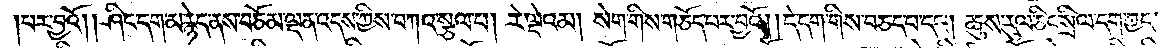པར་བྱའོ། །ཤིང་དག་མ་རྙེད་ནས་བཅོམ་ལྡན་འདས་ཀྱིས་བཀའ་སྩལ་པ། རེ་ལྡེའམ། སེག་གིས་གཅོད་པར་བྱའོ། །དེ་དག་གིས་བཅད་པ་དང༌། ཆུས་རུལ་ཅིང་སྲིལ་དག་ཀྱང་
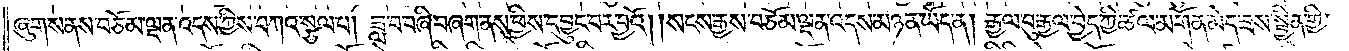ཞུགས་ནས་བཅོམ་ལྡན་འདས་ཀྱིས་བཀའ་སྩལ་པ། ཟླ་བ་བཞི་བཞག་ནས་ཕྱིས་དབྱུང་བར་བྱའོ། །སངས་རྒྱས་བཅོམ་ལྡན་འདས་མཉན་ཡོད་ན། རྒྱལ་བུ་རྒྱལ་བྱེད་ཀྱི་ཚལ་མགོན་མེད་ཟས་སྦྱིན་གྱི་
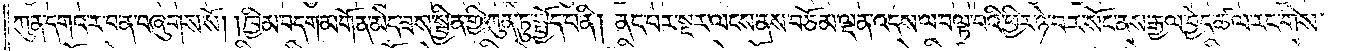ཀུན་དགའ་ར་བ་ན་བཞུགས་སོ། །ཁྱིམ་བདག་མགོན་མེད་ཟས་སྦྱིན་གྱི་ཀུན་ཏུ་སྤྱོད་པ་ནི། ནང་བར་སྔར་ལངས་ནས་བཅོམ་ལྡན་འདས་ལ་བལྟ་བའི་ཕྱིར་ཉེ་བར་སོང་ནས་རྒྱལ་བྱེད་ཚལ་རང་གིས་
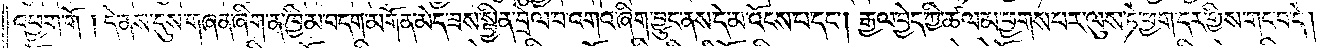འཕྱག་གོ །དེ་ནས་དུས་གཞན་ཞིག་ན་ཁྱིམ་བདག་མགོན་མེད་ཟས་སྦྱིན་བྲེལ་བ་འགའ་ཞིག་བྱུང་ནས་དེ་མ་འོངས་པ་དང༌། རྒྱལ་བྱེད་ཀྱི་ཚལ་མ་ཕྱགས་པར་ལུས་ཏེ་ཕྱག་དར་གྱིས་གང་བ་དེ།
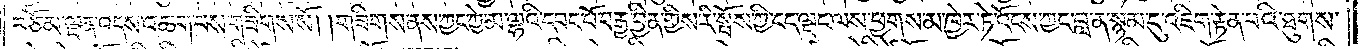བཅོམ་ལྡན་འདས་འཆགས་པས་གཟིགས་སོ། །གཟིགས་ནས་ཀྱང་ཀྱེ་མ་ལྷའི་དབང་པོ་བརྒྱ་བྱིན་གྱིས་རི་སྤོས་ཀྱི་ངད་ལྡང་ལས་ཕྱགས་མ་ཁྱེར་ཏེ་འོངས་ཀྱང་བླ་ན་སྙམ་དུ་འཇིག་རྟེན་པའི་ཐུགས་
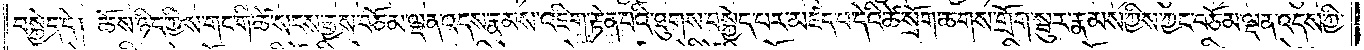བསྐྱེད་དེ། ཆོས་ཉིད་ཀྱིས་གང་གི་ཚེ་སངས་རྒྱས་བཅོམ་ལྡན་འདས་རྣམས་འཇིག་རྟེན་པའི་ཐུགས་བསྐྱེད་པར་མཛད་པ་དེའི་ཚེ་སྲོག་ཆགས་གྲོག་སྦུར་རྣམས་ཀྱིས་ཀྱང་བཅོམ་ལྡན་འདས་ཀྱི་
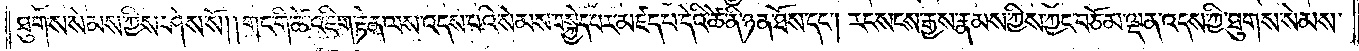ཐུགས་སེམས་ཀྱིས་ཤེས་སོ། །གང་གི་ཚེ་འཇིག་རྟེན་ལས་འདས་པའི་སེམས་བསྐྱེད་པར་མཛད་པ་དེའི་ཚེ་ན་ཉན་ཐོས་དང༌། རང་སངས་རྒྱས་རྣམས་ཀྱིས་ཀྱང་བཅོམ་ལྡན་འདས་ཀྱི་ཐུགས་སེམས་
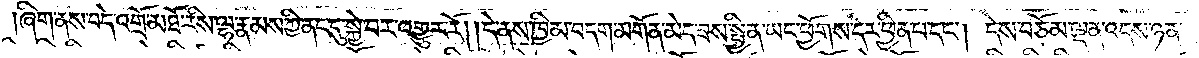ཞིག་ནས་བདེ་འགྲོ་མཐོ་རིས་ལྷ་རྣམས་ཀྱི་ནང་དུ་སྐྱ་བར་འགྱུར་རོ། །དེ་ནས་ཁྱིམ་བདག་མགོན་མེད་ཟས་སྦྱིན་ཡང་ཕྱོགས་དེར་ཕྱིན་པ་དང༌། དེས་བཅོམ་ལྡན་འདས་ཉན་
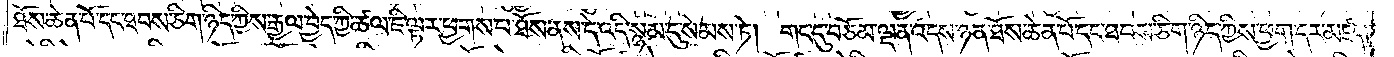ཐོས་ཆེན་པོ་དང་ཐབས་ཅིག་ཉིད་ཀྱིས་རྒྱལ་བྱེད་ཀྱི་ཚལ་ཇི་ལྟར་ཕྱགས་པ་ཐོས་ནས་དེ་འདི་སྙམ་དུ་སེམས་ཏེ། གང་དུ་བཅོམ་ལྡན་འདས་ཉན་ཐོས་ཆེན་པོ་དང་ཐབས་ཅིག་ཉིད་ཀྱིས་ཕྱག་དར་མཛད་
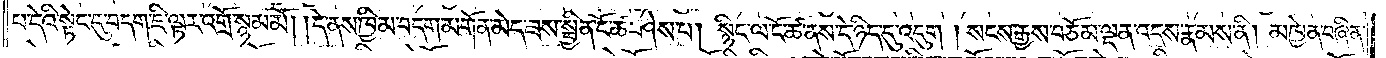པ་དེའི་སྟེང་དུ་བདག་ཇི་ལྟར་འགྲོ་སྙམ་མོ། །དེ་ནས་ཁྱིམ་བདག་མགོན་མེད་ཟས་སྦྱིན་ངོ་ཚ་ཤེས་པ། སྙིང་ལ་ངོ་ཚ་ནས་དེ་ཉིད་དུ་འདུག །སངས་རྒྱས་བཅོམ་ལྡན་འདས་རྣམས་ནི། མཁྱེན་བཞིན་
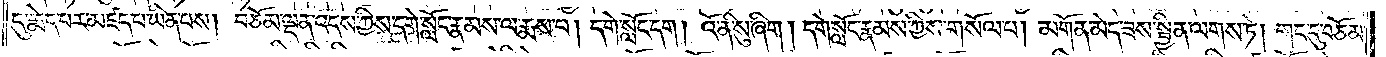དུ་རྨེད་པར་མཛད་པ་ཡིན་པས། བཅོམ་ལྡན་འདས་ཀྱིས་དགེ་སློང་རྣམས་ལ་རྨས་པ། དགེ་སློང་དག །འོ་ནི་སུ་ཞིག །དགེ་སློང་རྣམས་ཀྱིས་གསོལ་པ། མགོན་མེད་ཟས་སྦྱིན་ལགས་ཏེ། གང་དུ་བཅོམ་
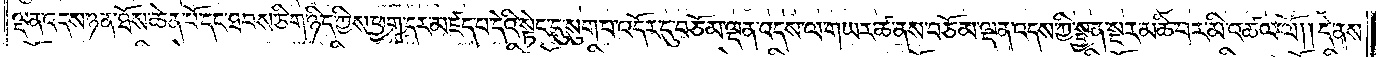ལྡན་འདས་ཉན་ཐོས་ཆེན་པོ་དང་ཐབས་ཅིག་ཉིད་ཀྱིས་ཕྱག་དར་མཛད་པ་དེའི་སྟེང་དུ་སུག་པ་འདོར་དུ་བཅོམ་ལྡན་འདས་ལ་གཡར་ཚ་ནས་བཅོམ་ལྡན་འདས་ཀྱི་སྤྱན་སྔར་མཆི་བར་མི་འཚལ་ལོ། །དེ་ནས་
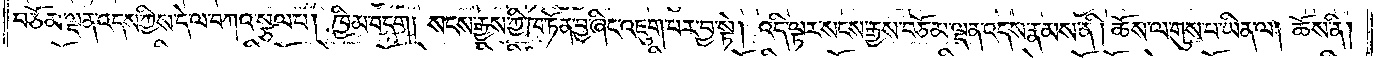བཅོམ་ལྡན་འདས་ཀྱིས་དེ་ལ་བཀའ་སྩལ་པ། ཁྱིམ་བདག །སངས་རྒྱས་ཀྱི་ཁ་ཏོན་བྱ་ཞིང་འཇུག་པར་བྱ་སྟེ། འདི་ལྟར་སངས་རྒྱས་བཅོམ་ལྡན་འདས་རྣམས་ནི། ཆོས་ལ་གུས་པ་ཡིན་ལ། ཆོས་ནི།
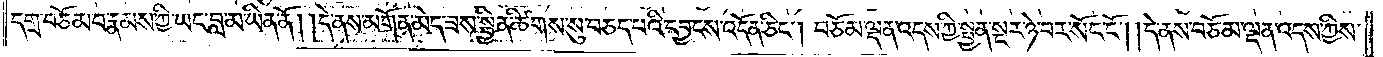དགྲ་བཅོམ་པ་རྣམས་ཀྱི་ཡང་བླ་མ་ཡིན་ནོ། །དེ་ནས་མགོན་མེད་ཟས་སྦྱིན་ཚིགས་སུ་བཅད་པའི་དབྱངས་འདོན་ཅིང༌། བཅོམ་ལྡན་འདས་ཀྱི་སྤྱན་སྔར་ཉེ་བར་སོང་ངོ༌། །དེ་ནས་བཅོམ་ལྡན་འདས་ཀྱིས་
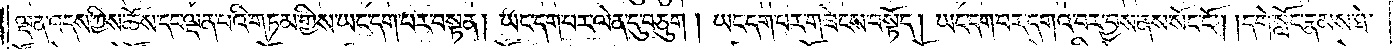ལྡན་འདས་ཀྱིས་ཆོས་དང་ལྡན་པའི་གཏམ་གྱིས་ཡང་དག་པར་བསྟན། ཡང་དག་པར་ལེན་དུ་བཅུག །ཡང་དག་པར་གཟེངས་བསྟོད། ཡང་དག་པར་དགའ་བར་བྱས་ནས་སོང་ངོ༌། །དགེ་སློང་རྣམས་ཐེ་
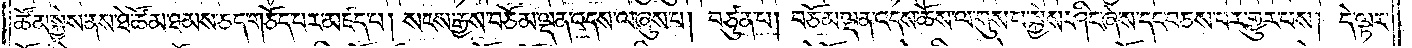ཚོམ་སྐྱེས་ནས་ཐེ་ཚོམ་ཐམས་ཅད་གཅོད་པར་མཛད་པ། སངས་རྒྱས་བཅོམ་ལྡན་འདས་ལ་ཞུས་པ། བཙུན་པ། བཅོམ་ལྡན་འདས་ཆོས་ལ་གུས་པ་སྐྱེས་ཤིང་ཞེས་དང་བཅས་པར་གྱུར་པས། དེ་ལྟར་
